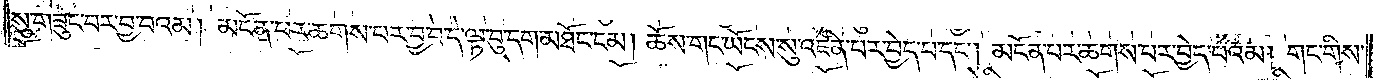སུ་གཟུང་བར་བྱ་བའམ། མངོན་པར་ཆགས་པར་བྱ་བ་དེ་ལྟ་བུ་དག་མཐོང་ངམ། ཆོས་གང་ཡོངས་སུ་འཛིན་པར་བྱེད་པ་དང༌། མངོན་པར་ཆགས་པར་བྱེད་པའམ། གང་གིས་
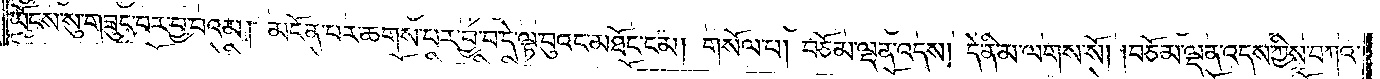ཡོངས་སུ་གཟུང་བར་བྱ་བའམ། མངོན་པར་ཆགས་པར་བྱ་བ་དེ་ལྟ་བུའང་མཐོང་ངམ། གསོལ་པ། བཅོམ་ལྡན་འདས། དེ་ནི་མ་ལགས་སོ། །བཅོམ་ལྡན་འདས་ཀྱིས་བཀའ་
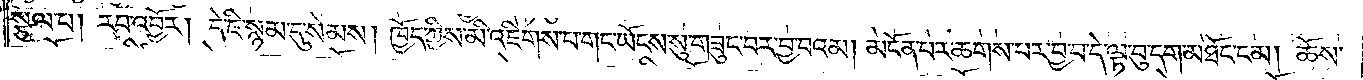སྩལ་པ། རབ་འབྱོར། དེ་ཇི་སྙམ་དུ་སེམས། ཁྱོད་ཀྱིས་མི་འཇིགས་པ་གང་ཡོངས་སུ་གཟུང་བར་བྱ་བའམ། མངོན་པར་ཆགས་པར་བྱ་བ་དེ་ལྟ་བུ་དག་མཐོང་ངམ། ཆོས་
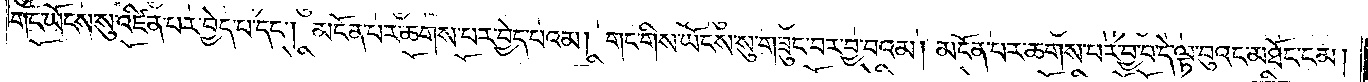གང་ཡོངས་སུ་འཛིན་པར་བྱེད་པ་དང༌། མངོན་པར་ཆགས་པར་བྱེད་པའམ། གང་གིས་ཡོངས་སུ་གཟུང་བར་བྱ་བའམ། མངོན་པར་ཆགས་པར་བྱ་བ་དེ་ལྟ་བུའང་མཐོང་ངམ།
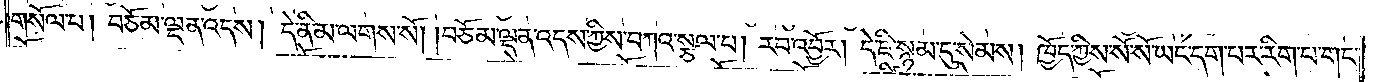གསོལ་པ། བཅོམ་ལྡན་འདས། དེ་ནི་མ་ལགས་སོ། །བཅོམ་ལྡན་འདས་ཀྱིས་བཀའ་སྩལ་བ། རབ་འབྱོར། དེ་ཇི་སྙམ་དུ་སེམས། ཁྱོད་ཀྱིས་སོ་སོ་ཡང་དག་པར་རིག་པ་གང་
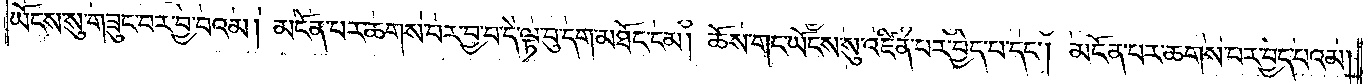ཡོངས་སུ་གཟུང་བར་བྱ་བའམ། མངོན་པར་ཆགས་པར་བྱ་བ་དེ་ལྟ་བུ་དག་མཐོང་ངམ། ཆོས་གང་ཡོངས་སུ་འཛིན་པར་བྱེད་པ་དང༌། མངོན་པར་ཆགས་པར་བྱེད་པའམ།
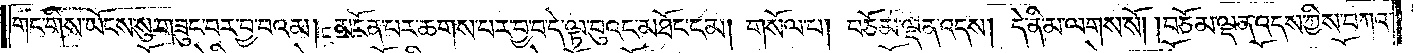གང་གིས་ཡོངས་སུ་གཟུང་བར་བྱ་བའམ། མངོན་པར་ཆགས་པར་བྱ་བ་དེ་ལྟ་བུའང་མཐོང་ངམ། གསོལ་པ། བཅོམ་ལྡན་འདས། དེ་ནི་མ་ལགས་སོ། །བཅོམ་ལྡན་འདས་ཀྱིས་བཀའ་
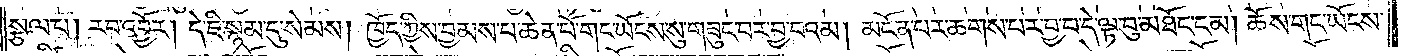སྩལ་པ། རབ་འབྱོར། དེ་ཇི་སྙམ་དུ་སེམས། ཁྱོད་ཀྱིས་བྱམས་པ་ཆེན་པོ་གང་ཡོངས་སུ་གཟུང་བར་བྱ་བའམ། མངོན་པར་ཆགས་པར་བྱ་བ་དེ་ལྟ་བུ་མཐོང་ངམ། ཆོས་གང་ཡོངས་
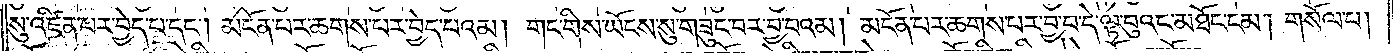སུ་འཛིན་པར་བྱེད་པ་དང༌། མངོན་པར་ཆགས་པར་བྱེད་པའམ། གང་གིས་ཡོངས་སུ་གཟུང་བར་བྱ་བའམ། མངོན་པར་ཆགས་པར་བྱ་བ་དེ་ལྟ་བུའང་མཐོང་ངམ། གསོལ་པ།
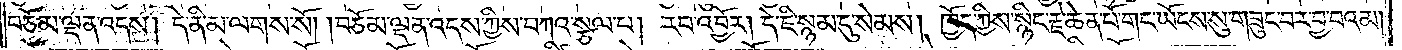བཅོམ་ལྡན་འདས། དེ་ནི་མ་ལགས་སོ། །བཅོམ་ལྡན་འདས་ཀྱིས་བཀའ་སྩལ་པ། རབ་འབྱོར། དེ་ཇི་སྙམ་དུ་སེམས། ཁྱོད་ཀྱིས་སྙིང་རྗེ་ཆེན་པོ་གང་ཡོངས་སུ་གཟུང་བར་བྱ་བའམ།
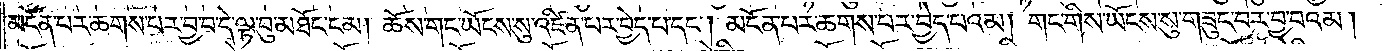མངོན་པར་ཆགས་པར་བྱ་བ་དེ་ལྟ་བུ་མཐོང་ངམ། ཆོས་གང་ཡོངས་སུ་འཛིན་པར་བྱེད་པ་དང༌། མངོན་པར་ཆགས་པར་བྱེད་པའམ། གང་གིས་ཡོངས་སུ་གཟུང་བར་བྱ་བའམ།
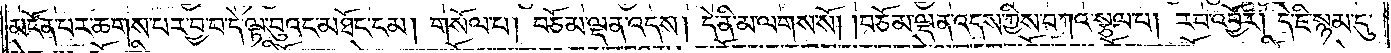མངོན་པར་ཆགས་པར་བྱ་བ་དེ་ལྟ་བུའང་མཐོང་ངམ། གསོལ་པ། བཅོམ་ལྡན་འདས། དེ་ནི་མ་ལགས་སོ། །བཅོམ་ལྡན་འདས་ཀྱིས་བཀའ་སྩལ་པ། རབ་འབྱོར། དེ་ཇི་སྙམ་དུ་
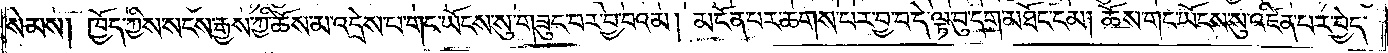སེམས། ཁྱོད་ཀྱིས་སངས་རྒྱས་ཀྱི་ཆོས་མ་འདྲེས་པ་གང་ཡོངས་སུ་གཟུང་བར་བྱ་བའམ། མངོན་པར་ཆགས་པར་བྱ་བ་དེ་ལྟ་བུ་དག་མཐོང་ངམ། ཆོས་གང་ཡོངས་སུ་འཛིན་པར་བྱེད་
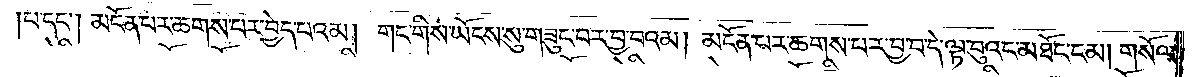པ་དང༌། མངོན་པར་ཆགས་པར་བྱེད་པའམ། གང་གིས་ཡོངས་སུ་གཟུང་བར་བྱ་བའམ། མངོན་པར་ཆགས་པར་བྱ་བ་དེ་ལྟ་བུའང་མཐོང་ངམ། གསོལ་
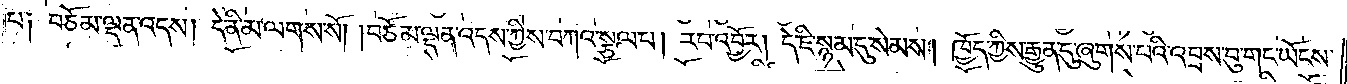པ། བཅོམ་ལྡན་འདས། དེ་ནི་མ་ལགས་སོ། །བཅོམ་ལྡན་འདས་ཀྱིས་བཀའ་སྩལ་པ། རབ་འབྱོར། དེ་ཇི་སྙམ་དུ་སེམས། ཁྱོད་ཀྱིས་རྒྱུན་དུ་ཞུགས་པའི་འབྲས་བུ་གང་ཡོངས་
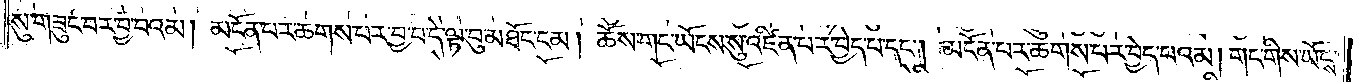སུ་གཟུང་བར་བྱ་བའམ། མངོན་པར་ཆགས་པར་བྱ་བ་དེ་ལྟ་བུ་མཐོང་ངམ། ཆོས་གང་ཡོངས་སུ་འཛིན་པར་བྱེད་པ་དང༌། མངོན་པར་ཆགས་པར་བྱེད་པའམ། གང་གིས་ཡོངས་
